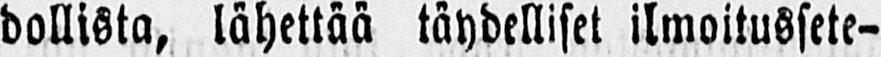dollista, lähettää täydelliset ilmoitussete-
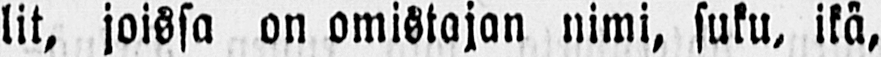lit, joissa on omistajan nimi, suku, ikä,
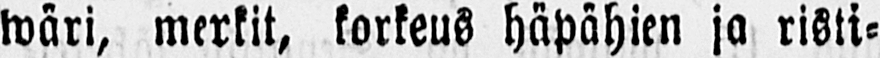wäri, merkit, korkeus häpähien ja risti-
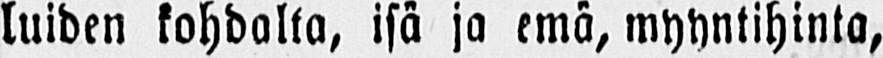luiden kohdalta, isä ja emä, myyntihinta,
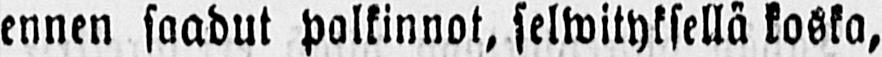ennen saadut palkinnot, selwityksellä koska,
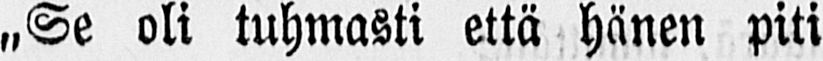„Se oli tuhmasti että hänen piti
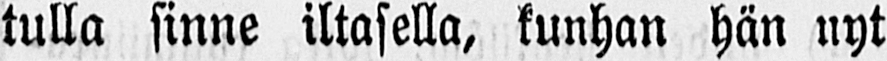tulla sinne iltasella, kunhan hän nyt
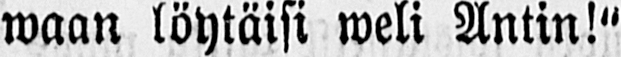waan löytäisi weli Antin!"
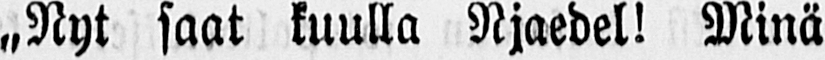„Nyt saat kuulla Njaedel! Minä
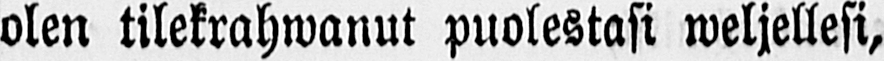olen tilekrahwanut puolestasi weljellesi,
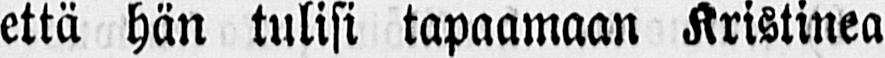että hän tulisi tapaamaan Kristinea
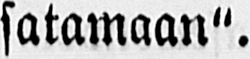satamaan".
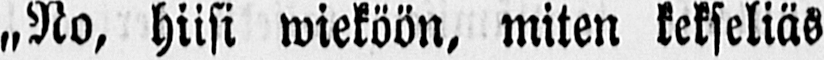„No, hiisi wieköön, miten kekseliäs
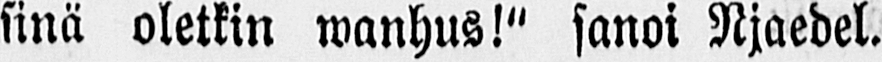sinä oletkin wanhus!" sanoi Njaedel.
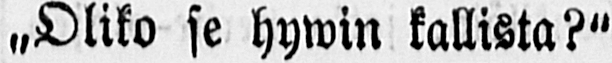˶Oliko se hywin kallista?"
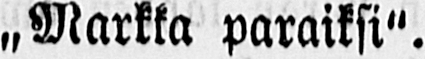„ Markka paraiksi".
